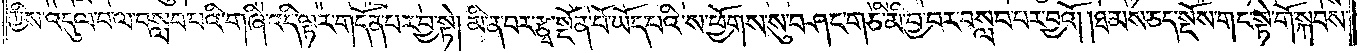ཀྱིས་འདུལ་བ་ལ་བསླབ་པའི་གཞི་འདི་ལྟར་གདོན་པར་བྱ་སྟེ། མིན་པར་རྩྭ་སྔོན་པོ་ཡོད་པའི་ས་ཕྱོགས་སུ་བཤང་གཅི་མི་བྱ་བར་བསླབ་པར་བྱའོ། །ཐམས་ཅད་སྔོས་གང་སྟེ་གོ་སྐབས་
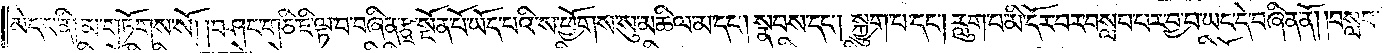མེད་པ་ནི། མ་གཏོགས་སོ། །བཤང་གཅི་ཇི་ལྟ་བ་བཞིན་རྩྭ་སྔོན་པོ་ཡོད་པའི་ས་ཕྱོགས་སུ་མཆིལ་མ་དང༌། སྣབས་དང༌། སྐྱུག་པ་དང༌། རླུག་པ་མི་དོར་བར་བསླབ་པར་བྱ་བ་ཡང་དེ་བཞིན་ནོ། །བསླབ་
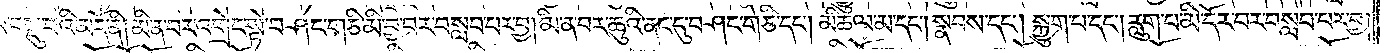པ་བསྡུ་བའི་མདོ་ནི། མི་ན་བར་འགྲེང་སྟེ་བཤང་གཅི་མི་བྱ་བར་བསླབ་པར་བྱ། མི་ན་བར་ཆུའི་ནང་དུ་བཤང་གཅི་དང༌། མཆིལ་མ་དང༌། སྣབས་དང༌། སྐྱུག་པ་དང༌། རླུག་པ་མི་དོར་བར་བསླབ་པར་བྱ།
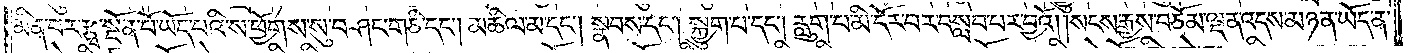མི་ན་བར་རྩྭ་སྔོན་པོ་ཡོད་པའི་ས་ཕྱོགས་སུ་བཤང་གཅི་དང༌། མཆིལ་མ་དང༌། སྣབས་དང༌། སྐྱུག་པ་དང༌། རླུག་པ་མི་དོར་བར་བསླབ་པར་བྱའོ། །སངས་རྒྱས་བཅོམ་ལྡན་འདས་མཉན་ཡོད་ན་
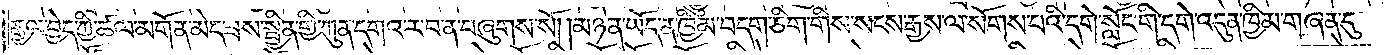རྒྱལ་བྱེད་ཀྱི་ཚལ་མགོན་མེད་ཟས་སྦྱིན་གྱི་ཀུན་དགའ་ར་བ་ན་བཞུགས་སོ། །མཉན་ཡོད་ན་ཁྱིམ་བདག་ཅིག་གིས་སངས་རྒྱས་ལ་སོགས་པའི་དགེ་སློང་གི་དགེ་འདུན་ཁྱིམ་གཞན་དུ་
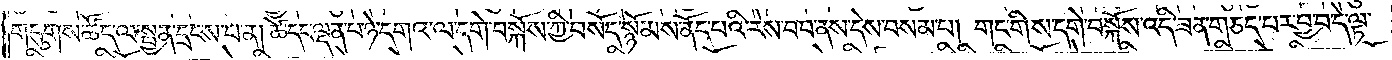གདུགས་ཚོད་ལ་སྤྱན་དྲངས་པ་ན། ཚེ་དང་ལྡན་པ་ཉེ་དགའ་ལ་དགེ་བསྐོས་ཀྱི་བསོད་སྙོམས་ནོད་པའི་རེས་བབ་ནས་དེས་བསམ་པ། གང་གིས་དགེ་བསྐོས་འདི་ཟན་གཅད་པར་བྱ་བ་དེ་ལྟ་
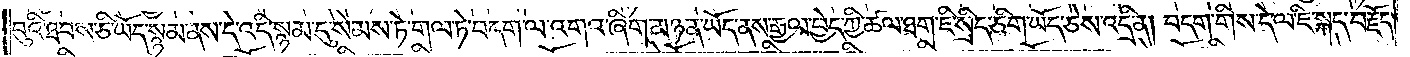བུའི་ཐབས་ཅི་ཡོད་སྙམ་ནས་དེ་འདི་སྙམ་དུ་སེམས་ཏེ་གལ་ཏེ་བདག་ལ་འགའ་ཞིག་མཉན་ཡོད་ནས་རྒྱལ་བྱེད་ཀྱི་ཚལ་ཐག་ཇི་སྲིད་ཅིག་ཡོད་ཅེས་འདྲི་ན། བདག་གིས་དེ་ལ་ཇི་སྐད་བརྗོད་
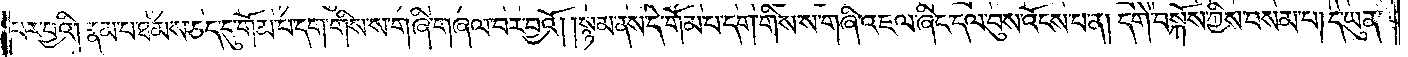པར་བྱའི། །རྣམ་པ་ཐམས་ཅད་དུ་གོམ་པ་དག་གིས་ས་གཞི་གཞལ་བར་བྱའོ། །སྙམ་ནས་དེ་གོམ་པ་དག་གིས་ས་གཞི་འཇལ་ཞིང་དལ་བུས་འོངས་པ་ན། དགེ་བསྐོས་ཀྱིས་བསམ་པ། དེ་ཡུན་
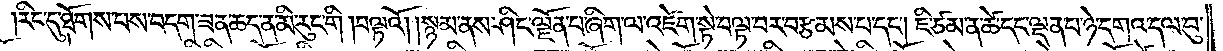རིང་དུ་ཐོགས་པས་བདག་ཟན་ཆད་ན་མི་རུང་གི །བལྟའོ། །སྙམ་ནས་ཤིང་ལྗོན་པ་ཞིག་ལ་འཛེག་སྟེ་བལྟ་བར་བརྩམས་པ་དང༌། ཇི་ཙམ་ན་ཚེ་དང་ལྡན་པ་ཉེ་དགའ་དལ་བུ་
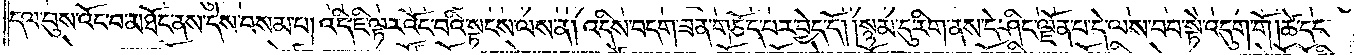དལ་བུས་འོང་བ་མཐོང་ནས་དེས་བསམ་པ། འདི་ཇི་ལྟར་འོང་བའི་སྟངས་ལས་ན། འདིས་བདག་ཟན་གཅོད་པར་བྱེད་དོ། །སྙམ་དུ་རིག་ནས་དེ་ཤིང་ལྗོན་པ་དེ་ལས་བབ་སྟེ་འདུག་གོ །ཚེ་དང་
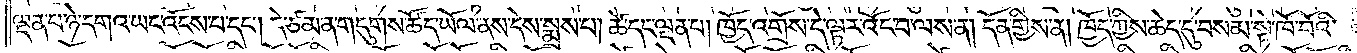ལྡན་པ་ཉེ་དགའ་ཡང་འོངས་པ་དང༌། དེ་ཙམ་ན་གདུགས་ཚོད་ཡོལ་ནས་དེས་སྨྲས་པ། ཚེ་དང་ལྡན་པ། ཁྱོད་འགྲོས་དེ་ལྟར་འོང་བ་ལས་ན། དོན་གྱིས་ན། ཁྱོད་ཀྱིས་ཆེད་དུ་བསམ་སྟེ་ཁོ་བོའི་
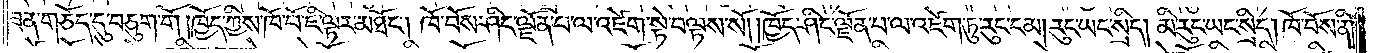ཟན་གཅོད་དུ་བཅུག་གོ །ཁྱོད་ཀྱིས་ཁོ་བོ་ཇི་ལྟར་མཐོང༌། ཁོ་བོས་ཤིང་ལྗོན་པ་ལ་འཛེག་སྟེ་བལྟས་སོ། །ཁྱོད་ཤིང་ལྗོན་པ་ལ་འཛེག་ཏུ་རུང་ངམ། །རུང་ཡང་སྲིད། །མི་རུང་ཡང་སྲིད། །ཁོ་བོས་ནི།
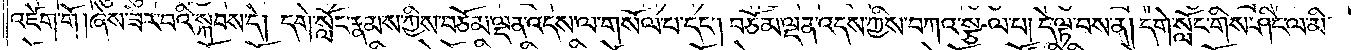འཛེག་གོ །ཞེས་ཟེར་བའི་སྐབས་དེ། དགེ་སློང་རྣམས་ཀྱིས་བཅོམ་ལྡན་འདས་ལ་གསོལ་བ་དང༌། བཅོམ་ལྡན་འདས་ཀྱིས་བཀའ་སྩལ་པ། དེ་ལྟ་བས་ན། དགེ་སློང་གིས་ཤིང་ལ་མི་
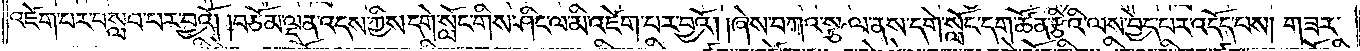འཛེག་པར་བསླབ་པར་བྱའོ། །བཅོམ་ལྡན་འདས་ཀྱིས་དགེ་སློང་གིས་ཤིང་ལ་མི་འཛེག་པར་བྱའོ། །ཞེས་བཀའ་སྩལ་ནས་དགེ་སློང་དག་ཚོན་རྩིའི་ལས་བྱེད་པར་འདོད་པས། གཟར་
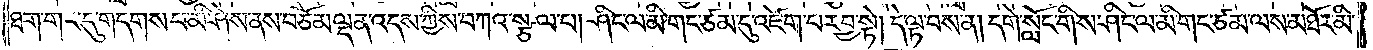ཐག་གར་དུ་གདགས་པ་མི་ཤེས་ནས་བཅོམ་ལྡན་འདས་ཀྱིས་བཀའ་སྩལ་པ། ཤིང་ལ་མི་གང་ཙམ་དུ་འཛེག་པར་བྱ་སྟེ། དེ་ལྟ་བས་ན། དགེ་སློང་གིས་ཤིང་ལ་མི་གང་ཙམ་ལས་མཐོར་མི་
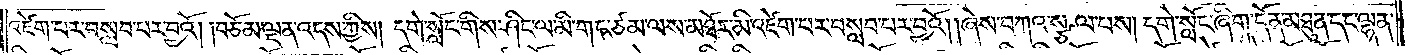འཛེག་པར་བསླབ་པར་བྱའོ། །བཅོམ་ལྡན་འདས་ཀྱིས། དགེ་སློང་གིས་ཤིང་ལ་མི་གང་ཙམ་ལས་མཐོར་མི་འཛེག་པར་བསླབ་པར་བྱའོ། །ཞེས་བཀའ་སྩལ་པས། དགེ་སློང་ཞིག་དོན་མཐུན་དང་ལྷན་
